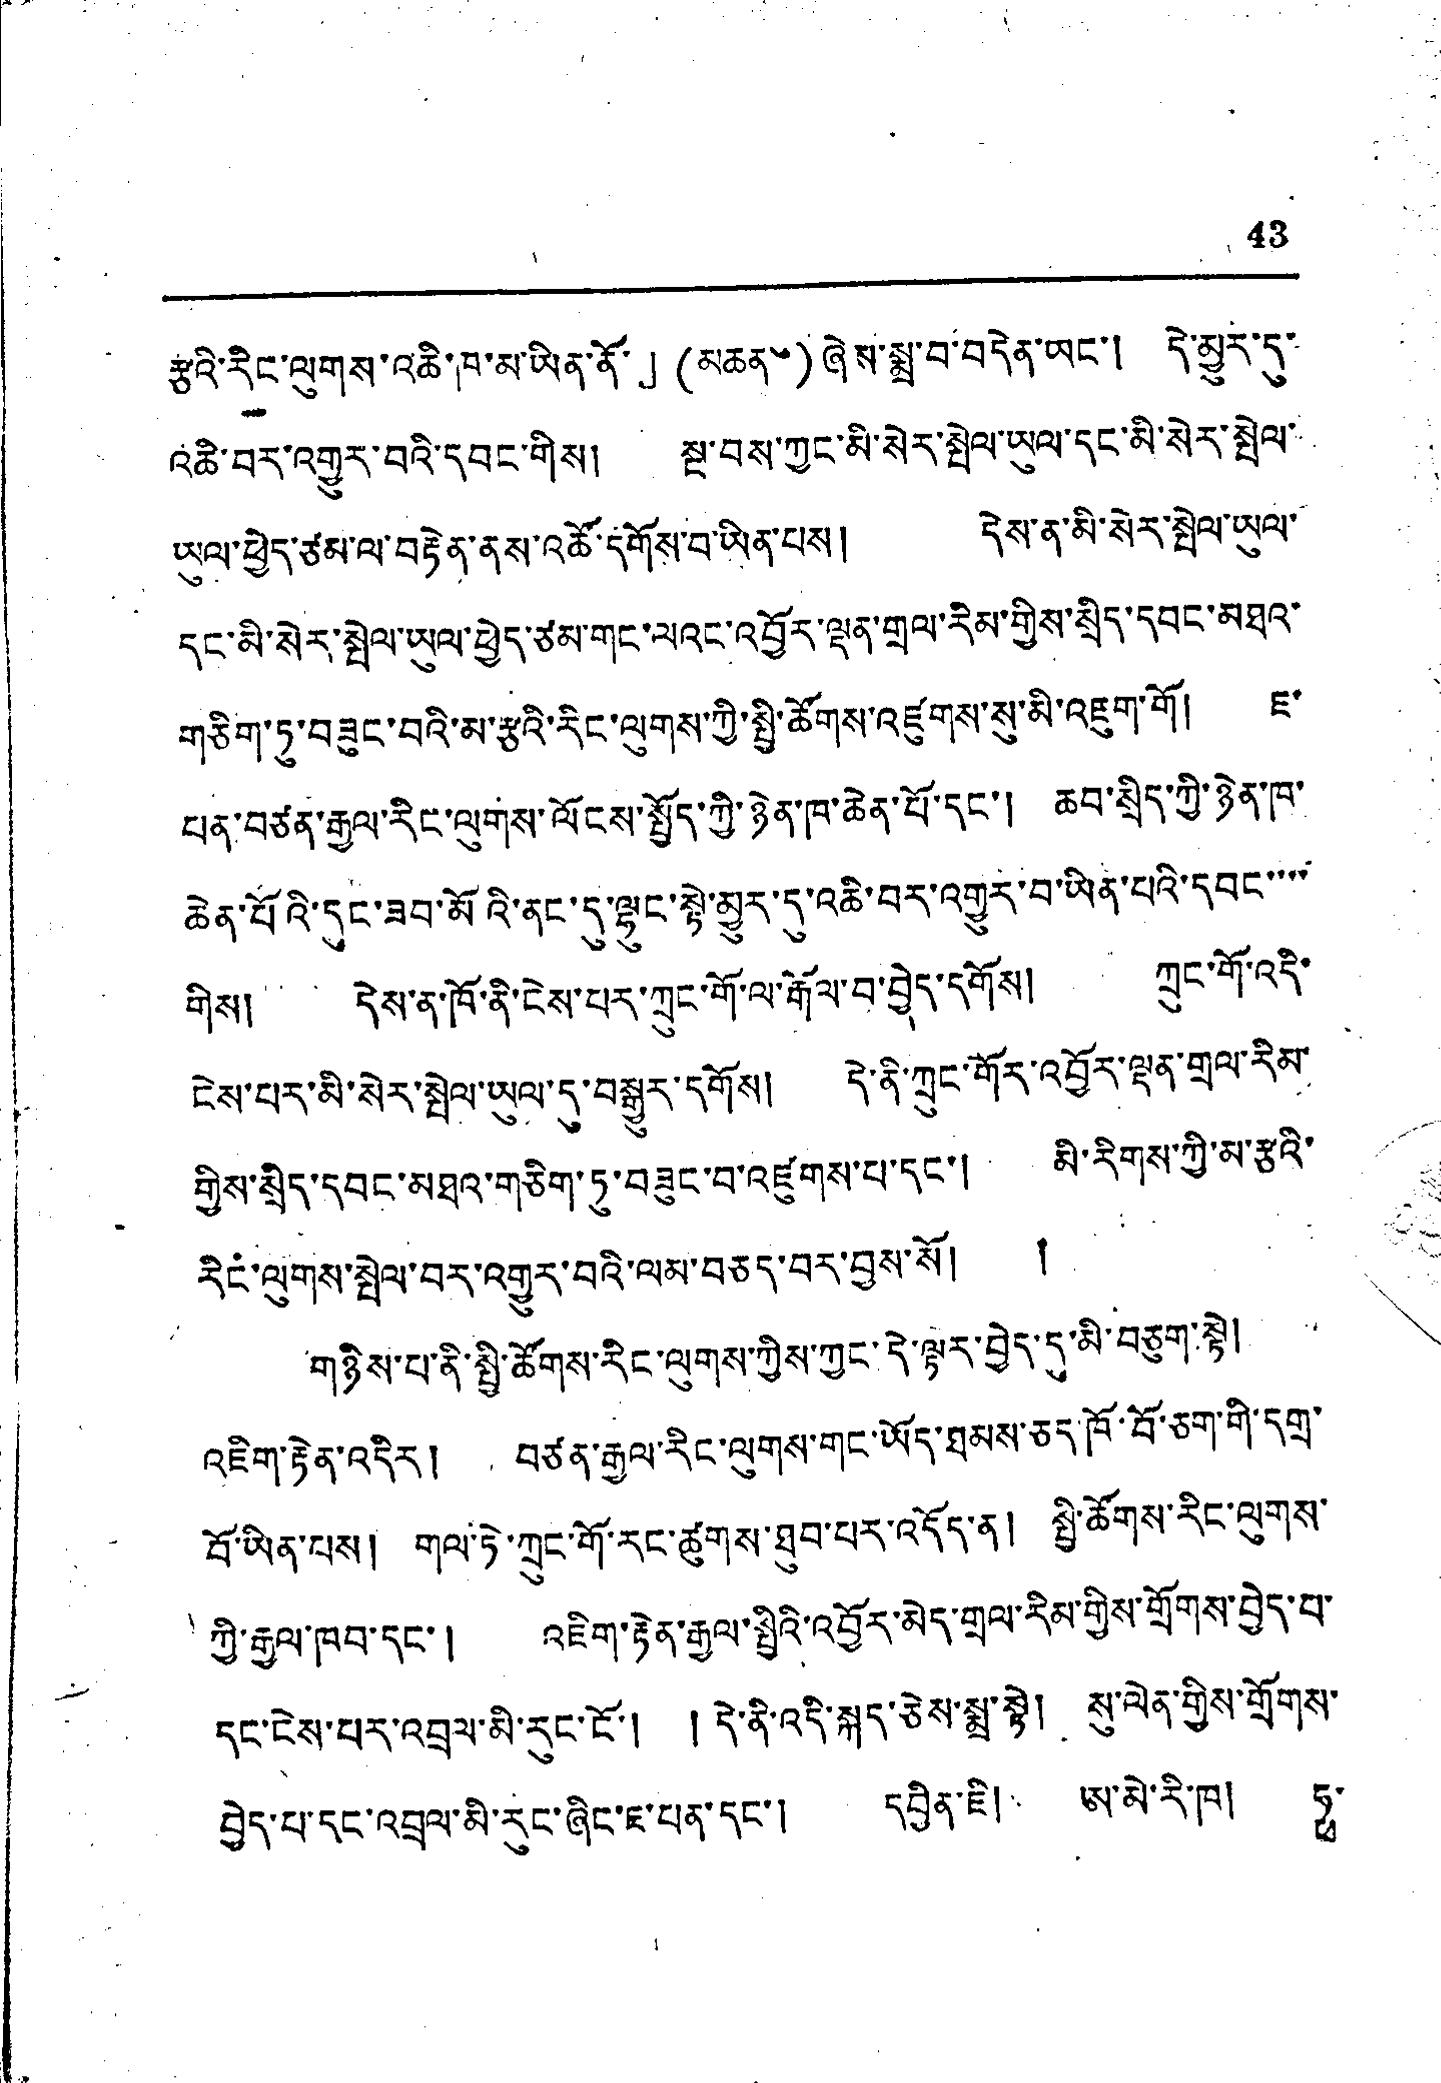43
རྩའི་རིང་ལུགས་འཆི་ཁ་མ་ཡིན་ནོ་」(མཆན ༦)ཞེས་སྨྲ་བ་བདེན་ཡང་། དེ་མྱུར་དུ་
འཆི་བར་འགྱུར་བའི་དབང་གིས། སྔ་བས་ཀྱང་མི་སེར་སྤེལ་ཡུལ་དང་མི་སེར་སྤེལ་
ཡུལ་ཕྱེད་ཙམ་ལ་བརྟེན་ནས་འཚོ་དགོས་བ་ཡིན་པས། དེས་ན་མི་སེར་སྤེལ་ཡུལ་
དང་མི་སེར་སྤེལ་ཡུལ་ཕྱེད་ཙམ་གང་ལའང་འབྱོར་ལྡན་གྲལ་རིམ་གྱི་སྲིད་དབང་མཐའ་
གཅིག་ཏུ་བཟུང་བའི་མ་རྩའི་རིང་ལུས་ཀྱི་སྤྱི་ཚོགས་འཛུགས་སུ་མི་འཇུག་གོ། ཇ་
པན་བཙན་རྒྱལ་རིང་ལུགས་ལོངས་སྤྱོད་ཀྱི་ཉེན་ཁ་ཆེན་པོ་དང་། ཆབ་སྲིད་ཀྱི་ཉེན་ཁ་
ཆེན་པོའི་དུང་ཟབ་མོའི་ནང་དུ་ལྷུང་སྟེ་མྱུར་དུ་འཆི་བར་འགྱུར་བ་ཡིན་པའི་དབང་་་་
གིས། དེས་ན་ཁོ་ནི་ངེས་པར་ཀྲུང་གོ་ལ་རྒོལ་བ་བྱེད་དགོས། ཀྲུང་གོ་འདི་
ངེས་པར་མི་སེར་སྤེལ་ཡུལ་དུ་བསྒྱུར་དགོས། དེ་ནི་ཀྲུང་གོར་འབྱོར་ལྡན་གྲལ་རིམ་
གྱིས་སྲིད་དབང་མཐའ་གཅིག་ཏུ་བཟུང་བ་འཛུགས་པ་དང་། མི་རིགས་ཀྱི་མ་རྩའི་
རིང་ལུགས་སྤེལ་བར་འགྱུར་བའི་ལམ་བཅད་བར་བྱས་སོ། །
གཉིས་པ་ནི་སྤྱི་ཚོགས་རིང་ལུགས་ཀྱིས་ཀྱང་དེ་ལྟར་བྱེད་དུ་མི་བཅུག་སྟེ།
འཇིག་རྟེན་འདིར། བཙན་རྒྱལ་རིང་ལུགས་གང་ཡོད་ཐམས་ཅད་ཁོ་བོ་ཅག་གི་དགྲ་
བོ་ཡིན་པས། གལ་ཏེ་ཀྲུང་གོ་རང་ཚུགས་ཐུབ་པར་འདོད་ན། སྤྱི་ཚོགས་རིང་ལུགས་
ཀྱི་རྒྱལ་ཁབ་དང་། འཇིག་རྟེན་རྒྱལ་སྤྱིའི་འབྱོར་མེད་གྲལ་རིམ་གྱིས་གྲོགས་བྱེད་པ་
དང་ངེས་པར་འབྲལ་མི་རང་ངོ་། ། དེ་ནི་འདི་སྐད་ཅེས་སྨྲ་སྟེ། སུ་ལེན་གྱིས་གྲོགས་
བྱེད་པ་དང་འབྲལ་མི་རུང་ཞིང་ཇ་པན་དང་། དབྱིན་ཇི། ཨ་མེ་རི་ཁ། ཧྥ་
